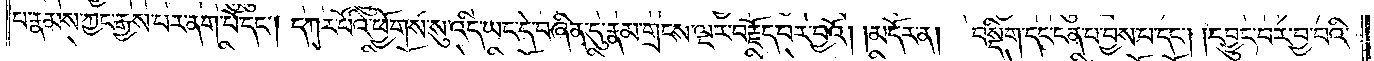པ་རྣམས་ཀྱང་རྒྱས་པར་ནག་པོ་དང༌། དཀར་པོའི་ཕྱོགས་སུ་འདི་ཡང་དེ་བཞིན་དུ་རྣམ་གྲངས་ལྔར་བརྗོད་པར་བྱའོ། །མདོར་ན། བསྡིག་དང་ངན་པ་བྱས་པ་དང༌། དབྱུང་བར་བྱ་བའི་
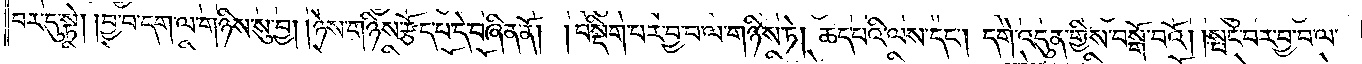བར་དུ་སྟེ། བྱ་བ་དག་ལ་གཉིས་སུ་བྱ། །ཉེས་གཉིས་རྩོད་པ་དེ་བཞིན་ནོ། །བསྡིག་པར་བྱ་བ་ལ་གཉིས་ཏེ། ཆད་པའི་ལས་དང༌། དགེ་འདུན་གྱིས་བསྒོ་བའོ། །སྤང་བར་བྱ་བ་ལ་
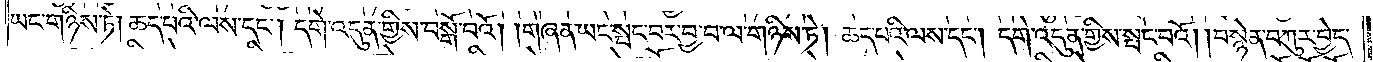ཡང་གཉིས་ཏེ། ཆད་པའི་ལས་དང༌། དགེ་འདུན་གྱིས་བསྒོ་བའོ། །གཞན་ཡང་སྤང་བར་བྱ་བ་ལ་གཉིས་ཏེ། ཆད་པའི་ལས་དང༌། དགེ་འདུན་གྱིས་སྤང་བའོ། །བསྙེན་བཀུར་བྱེད་
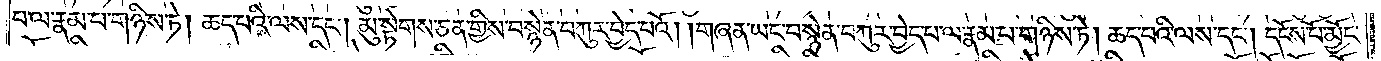པ་ལ་རྣམ་པ་གཉིས་ཏེ། ཆད་པའི་ལས་དང༌། མུ་སྟེགས་ཅན་གྱིས་བསྙེན་བཀུར་བྱེད་པའོ། །གཞན་ཡང་བསྙེན་བཀུར་བྱེད་པ་ལ་རྣམ་པ་གཉིས་ཏེ། ཆད་པའི་ལས་དང༌། དངོས་པོ་མྱོང་
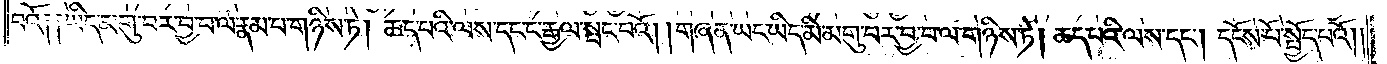བའོ༑ ༑ཡིད་མགུ་བར་བྱ་བ་ལ་རྣམ་པ་གཉིས་ཏེ། ཆད་པའི་ལས་དང་ང་རྒྱལ་སྤང་བའོ། །གཞན་ཡང་ཡིད་མི་མགུ་བར་བྱ་བ་ལ་གཉིས་ཏེ། ཆད་པའི་ལས་དང༌། དངོས་པོ་སྤྱོད་པའོ། །
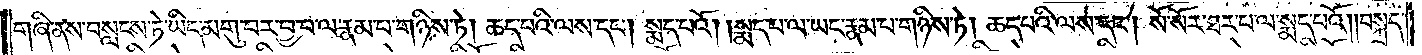གཞི་ནས་བསླངས་ཏེ་ཡིད་མགུ་བར་བྱ་བ་ལ་རྣམ་པ་གཉིས་ཏེ། ཆད་པའི་ལས་དང༌། སྨད་པའོ། །སྨད་པ་ལ་ཡང་རྣམ་པ་གཉིས་ཏེ། ཆད་པའི་ལས་དང༌། སོ་སོར་ཐར་པ་ལ་སྨད་པའོ། །བསྐྲད་
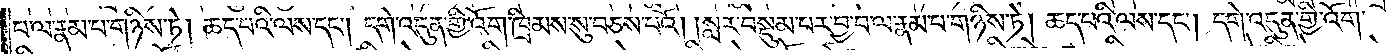པ་ལ་རྣམ་པ་གཉིས་ཏེ། ཆད་པའི་ལས་དང༌། དགེ་འདུན་གྱི་འོག་ཁྲིམས་སུ་བཅས་པའོ། །སླར་བསྡུམ་པར་བྱ་བ་ལ་རྣམ་པ་གཉིས་ཏེ། ཆད་པའི་ལས་དང༌། དགེ་འདུན་གྱི་འོག་
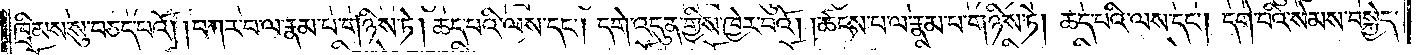ཁྲིམས་སུ་བཅད་པའོ། །བཀར་བ་ལ་རྣམ་པ་གཉིས་ཏེ། ཆད་པའི་ལས་དང༌། དགེ་འདུན་གྱིས་ཁྱེར་བའོ། །ཚངས་པ་ལ་རྣམ་པ་གཉིས་ཏེ། ཆད་པའི་ལས་དང༌། དགེ་བའི་སེམས་བསྐྱེད་
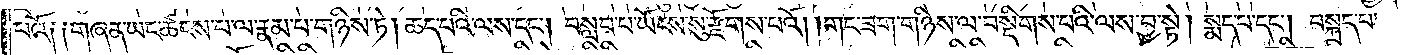པའོ༑ ༑གཞན་ཡང་ཚངས་པ་ལ་རྣམ་པ་གཉིས་ཏེ། ཆད་པའི་ལས་དང༌། བསླབ་པ་ཡོངས་སུ་རྫོགས་པའོ། །གང་ཟག་གཉིས་ལ་བསྡིགས་པའི་ལས་བྱ་སྟེ། སྨད་པ་དང༌། བསྐྲད་པ་
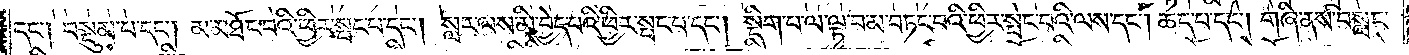དང༌། བསྡུམ་པ་དང༌། མ་མཐོང་བའི་ཕྱིར་སྤང་བ་དང༌། སླར་ལས་མི་བྱེད་པའི་ཕྱིར་སྤང་བ་དང༌། སྡིག་པ་ལ་ལྟ་བ་མ་བཏང་བའི་ཕྱིར་སྤང་བའི་ལས་དང༌། ཆད་པ་དང༌། གཞི་ནས་བསླང་
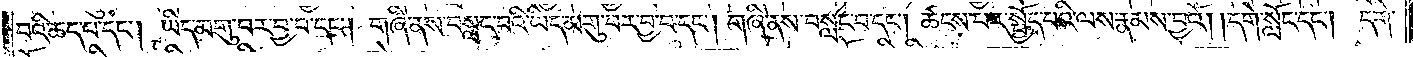བའི་ཆད་པ་དང༌། ཡིད་མགུ་བར་བྱ་བ་དང༌། གཞི་ནས་བསླང་བའི་ཡིད་མགུ་བར་བྱ་བ་དང༌། གཞི་ནས་བསླང་བ་དང༌། ཚངས་པར་སྤྱོད་པའི་ལས་རྣམས་བྱའོ། །དགེ་སློང་དང༌། དགེ་
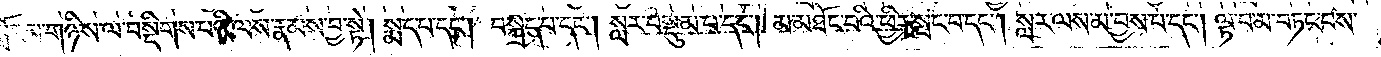སློང་མ་གཉིས་ལ་བསྡིགས་པའི་ལས་རྣམས་བྱ་སྟེ། སྨད་པ་དང༌། བསྐྲད་པ་དང༌། སླར་བསྡུམ་པ་དང༌། མ་མཐོང་བའི་ཕྱིར་སྤང་བ་དང༌། སླར་ལས་མ་བྱས་པ་དང༌། ལྟ་བ་མ་བཏང་བས་
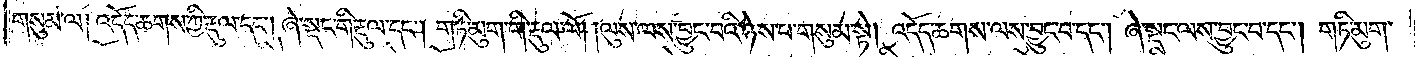གསུམ་ལ། འདོད་ཆགས་ཀྱི་རྡུལ་དང༌། ཞེ་སྡང་གི་རྡུལ་དང༌། གཏི་མུག་གི་རྡུལ་ལོ། །ལུས་ལས་བྱུང་བའི་ཉེས་པ་གསུམ་སྟེ། འདོད་ཆགས་ལས་བྱུང་བ་དང༌། ཞེ་སྡང་ལས་བྱུང་བ་དང༌། གཏི་མུག་
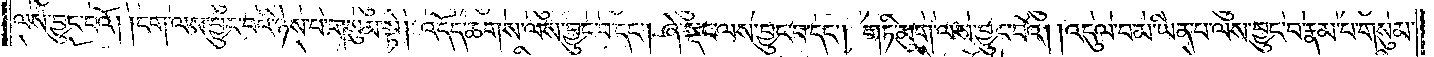ལས་བྱུང་བའོ། །ངག་ལས་བྱུང་བའི་ཉེས་པ་གསུམ་སྟེ། འདོད་ཆགས་ལས་བྱུང་བ་དང༌། ཞེ་སྡང་ལས་བྱུང་བ་དང༌། གཏི་མུག་ལས་བྱུང་བའོ། །འདུལ་བ་མ་ཡིན་པ་ལས་བྱུང་བ་རྣམ་པ་གསུམ་
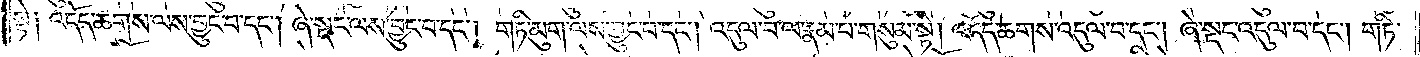སྟེ༑ འདོད་ཆགས་ལས་བྱུང་བ་དང༌། ཞེ་སྡང་ལས་བྱུང་བ་དང༌། གཏི་མུག་ལས་བྱུང་བ་དང༌། འདུལ་བ་ལ་རྣམ་པ་གསུམ་སྟེ། འདོད་ཆགས་འདུལ་བ་དང༌། ཞེ་སྡང་འདུལ་བ་དང༌། གཏི་
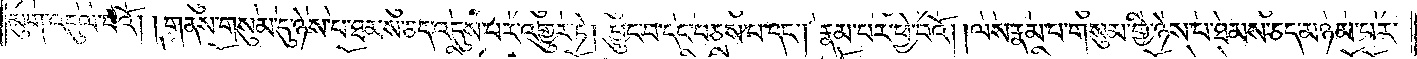མུག་འདུལ་བའོ། །གནས་གསུམ་དུ་ཉེས་པ་ཐམས་ཅད་འདུས་པར་འགྱུར་ཏེ། བྱུང་བ་དང་བཅས་པ་དང༌། རྣམ་པར་ཕྱེ་བའོ། །ལས་རྣམ་པ་གསུམ་གྱི་ཉེས་པ་ཐམས་ཅད་མཉམ་པར་
